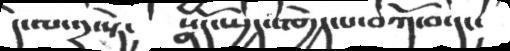དེ་ལ་༢་སྟེ། སྣོད་སྤྱད་འགྱེད་པ་བཀོ་བ་དང།
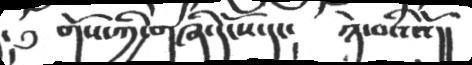གོས་ཀྱི་གཞི་དངོས་དང།  ཉེ་བའིའོ།།
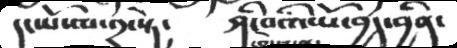དང་པོ་ལ་༢་སྟེ།  ཤི་བའི་ཡོ་བྱད་བྱིན་
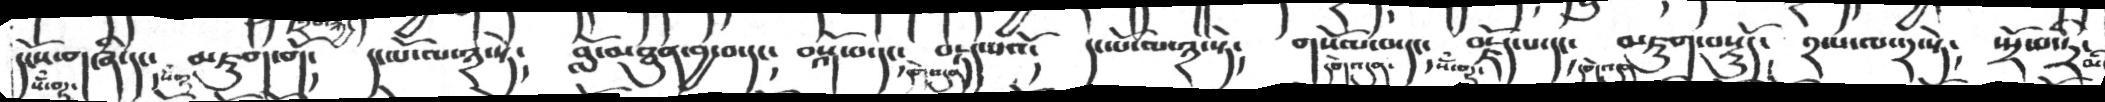དངོས་གཞི་དང༴   མཇུག་གོ༴  དང་པོ་ལ་༣་སྟེ༴   བློ་མཐུན་བྱ་བ་དང༴   བསྐོ་བ་དང༴  བརྟད་པའོ༴  དང་པོ་ལ་༣་སྟེ༴   གསོལ་བ་དང༴   བརྗོད་པ་དང༴   མཇུག་བསྡུདོ༴  ༢་པ་ལ་༢་སྟེ༴  སྤྲོ་བ་ཏྲི་
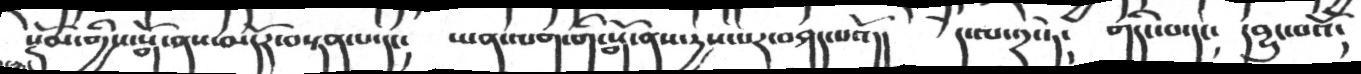སྡོམ་གྱིས་སྒོ་ནས་མདོར་བསྟན་པ་དང།  ཡན་ལག་གི་སྒོ་ནས་རྱས་པར་བཤད་པའོ།།  དང་ལ་༢་ཏེ།  གདིང་བ་དང།  དབྱུང་བའོ།
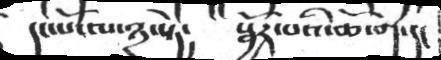དང་པོ་ལ་༣་སྟེ།  སྦྱོར་བའི་ཆོ་ག་དང
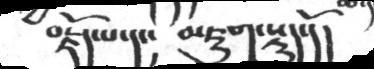བརྗོད་པ་དང་།  མཇུག་སྡུད་དོ།
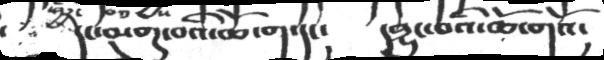དང་མགུ་བའི་ཆོ་ག་དང༴  དབྱུང་བའི་ཆོ་གའོ༴
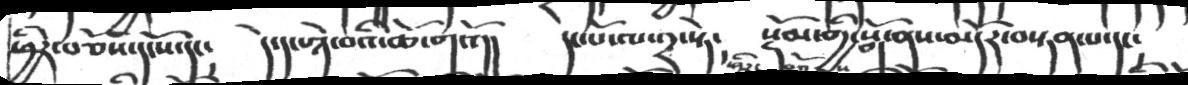ཕྱིར་བཅོས་དངོས་དང༴  དེ་དང་ཉེ་བའི་ཆོ་གའོ།།  དང་པོ་ལ་༢་སྟེ༴  སྡོམ་གྱི་སྒོ་ནས་མདོར་བསྟན་པ་དང༴
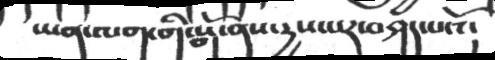ཡན་ལག་གི་སྒོ་ནས་རྱས་པར་བཤད་པའོ།
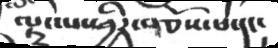ལྟུང་པ་ཕྱིར་བཅོས་པ་དང།
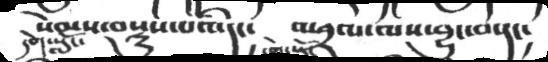སེམས་བསྡུས་པའི་དང༴  འཕྲལ་ལས་བྱུང་བ་དང༴
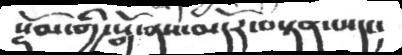སྡོམ་གྱི་སྒོ་ནས་མདོར་བསྟན་པ་དང།
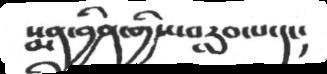སྨན་བྱིན་གྱིས་བརླབ་པ་དང།
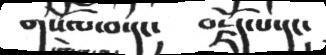གསོལ་བ་དང།   བརྗོད་པ་དང།
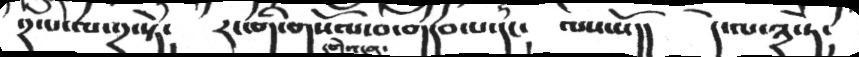༢་པ་ལ་༢་སྟེ༴  རང་གི་གསོལ་བ་གདབ་པ་དང༴  ལས་སོ།།  དེ་ལ་༣་ཏེ༴
